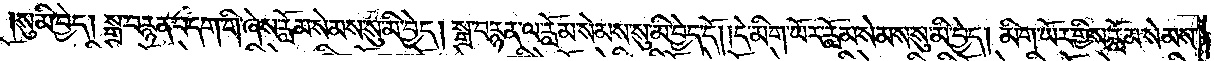སུ་མི་བྱེད། སྒྲ་བརྙན་བདག་གི་ཞེས་རློམ་སེམས་སུ་མི་བྱེད། སྒྲ་བརྙན་ལ་རློམ་སེམས་སུ་མི་བྱེད་དོ། །དེ་མིག་ཡོར་རློམ་སེམས་སུ་མི་བྱེད། མིག་ཡོར་གྱིས་རློམ་སེམས་
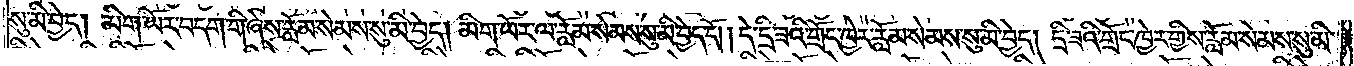སུ་མི་བྱེད། མིག་ཡོར་བདག་གི་ཞེས་རློམ་སེམས་སུ་མི་བྱེད། མིག་ཡོར་ལ་རློམ་སེམས་སུ་མི་བྱེད་དོ། །དེ་དྲི་ཟའི་གྲོང་ཁྱེར་རློམ་སེམས་སུ་མི་བྱེད། དྲི་ཟའི་གྲོང་ཁྱེར་གྱིས་རློམ་སེམས་སུ་མི་
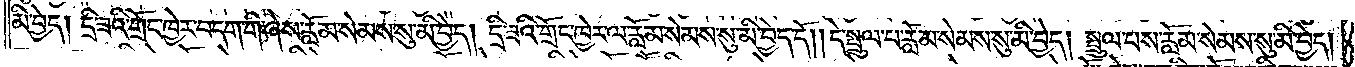མི་བྱེད། དྲི་ཟའི་གྲོང་ཁྱེར་བདག་གི་ཞེས་རློམ་སེམས་སུ་མི་བྱེད། དྲི་ཟའི་གྲོང་ཁྱེར་ལ་རློམ་སེམས་སུ་མི་བྱེད་དོ། །དེ་སྤྲུལ་པ་རློམ་སེམས་སུ་མི་བྱེད། སྤྲུལ་པས་རློམ་སེམས་སུ་མི་བྱེད།
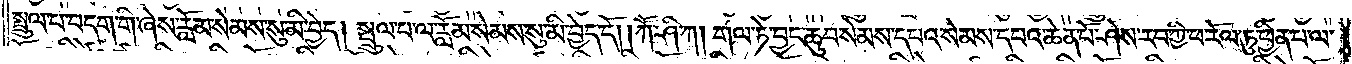སྤྲུལ་པ་བདག་གི་ཞེས་རློམ་སེམས་སུ་མི་བྱེད། སྤྲུལ་པ་ལ་རློམ་སེམས་སུ་མི་བྱེད་དོ། །ཀཽ་ཤི་ཀ། གལ་ཏེ་བྱང་ཆུབ་སེམས་དཔའ་སེམས་དཔའ་ཆེན་པོ་ཤེས་རབ་ཀྱི་ཕ་རོལ་ཏུ་ཕྱིན་པ་ལ་
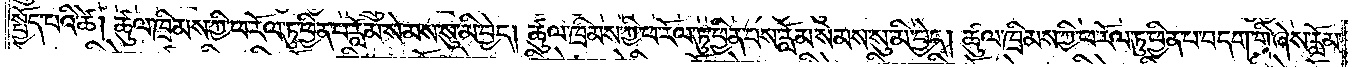སྤྱོད་པའི་ཚེ། ཚུལ་ཁྲིམས་ཀྱི་ཕ་རོལ་ཏུ་ཕྱིན་པ་རློམ་སེམས་སུ་མི་བྱེད། ཚུལ་ཁྲིམས་ཀྱི་ཕ་རོལ་ཏུ་ཕྱིན་པས་རློམ་སེམས་སུ་མི་བྱེད། ཚུལ་ཁྲིམས་ཀྱི་ཕ་རོལ་ཏུ་ཕྱིན་པ་བདག་གི་ཞེས་རློམ་
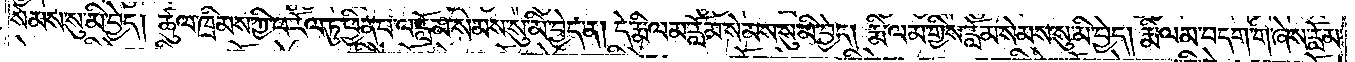སེམས་སུ་མི་བྱེད། ཚུལ་ཁྲིམས་ཀྱི་ཕ་རོལ་ཏུ་ཕྱིན་པ་ལ་རློམ་སེམས་སུ་མི་བྱེད་ན། དེ་རྨི་ལམ་རློམ་སེམས་སུ་མི་བྱེད། རྨི་ལམ་གྱིས་རློམ་སེམས་སུ་མི་བྱེད། རྨི་ལམ་བདག་གི་ཞེས་རློམ་
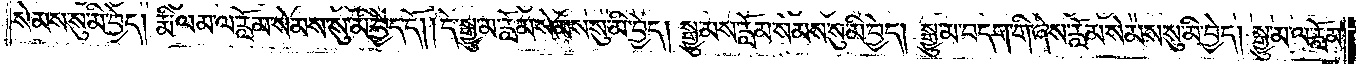སེམས་སུ་མི་བྱེད། རྨི་ལམ་ལ་རློམ་སེམས་སུ་མི་བྱེད་དོ། །དེ་སྒྱུ་མ་རློམ་སེམས་སུ་མི་བྱེད། སྒྱུ་མས་རློམ་སེམས་སུ་མི་བྱེད། སྒྱུ་མ་བདག་གི་ཞེས་རློམ་སེམས་སུ་མི་བྱེད། སྒྱུ་མ་ལ་རློམ་
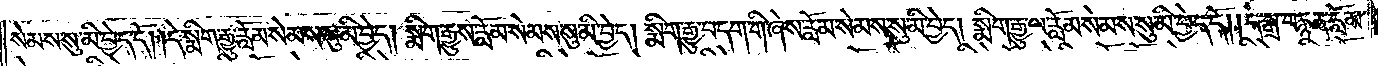སེམས་སུ་མི་བྱེད་དོ། །དེ་སྨིག་རྒྱུ་རློམ་སེམས་སུ་མི་བྱེད། སྨིག་རྒྱུས་རློམ་སེམས་སུ་མི་བྱེད། སྨིག་རྒྱུ་བདག་གི་ཞེས་རློམ་སེམས་སུ་མི་བྱེད། སྨིག་རྒྱུ་ལ་རློམ་སེམས་སུ་མི་བྱེད་དོ། །དེ་སྒྲ་བརྙན་རློམ་
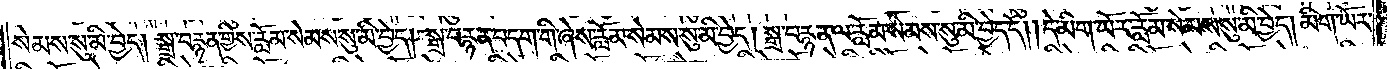སེམས་སུ་མི་བྱེད། སྒྲ་བརྙན་གྱིས་རློམ་སེམས་སུ་མི་བྱེད། སྒྲ་བརྙན་བདག་གི་ཞེས་རློམ་སེམས་སུ་མི་བྱེད། སྒྲ་བརྙན་ལ་རློམ་སེམས་སུ་མི་བྱེད་དོ། །དེ་མིག་ཡོར་རློམ་སེམས་སུ་མི་བྱེད། མིག་ཡོར་
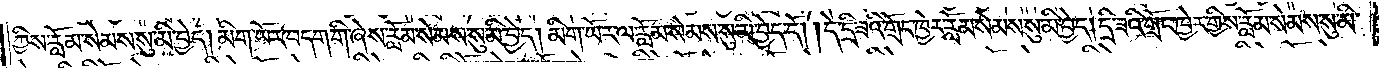གྱིས་རློམ་སེམས་སུ་མི་བྱེད། མིག་ཡོར་བདག་གི་ཞེས་རློམ་སེམས་སུ་མི་བྱེད། མིག་ཡོར་ལ་རློམ་སེམས་སུ་མི་བྱེད་དོ། །དེ་དྲི་ཟའི་གྲོང་ཁྱེར་རློམ་སེམས་སུ་མི་བྱེད། དྲི་ཟའི་གྲོང་ཁྱེར་གྱིས་རློམ་སེམས་སུ་མི་
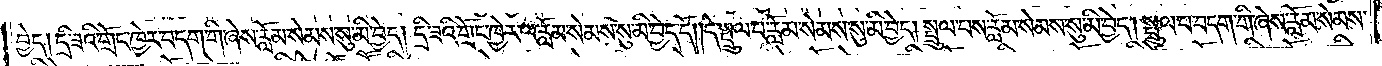བྱེད། དྲི་ཟའི་གྲོང་ཁྱེར་བདག་གི་ཞེས་རློམ་སེམས་སུ་མི་བྱེད། དྲི་ཟའི་གྲོང་ཁྱེར་ལ་རློམ་སེམས་སུ་མི་བྱེད་དོ། །དེ་སྤྲུལ་པ་རློམ་སེམས་སུ་མི་བྱེད། སྤྲུལ་པས་རློམ་སེམས་སུ་མི་བྱེད། སྤྲུལ་པ་བདག་གི་ཞེས་རློམ་སེམས་
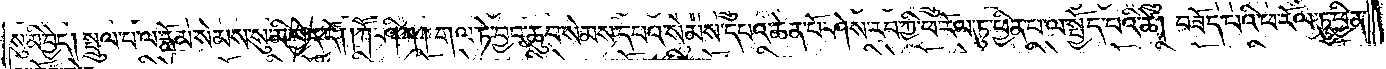སུ་མི་བྱེད། སྤྲུལ་པ་ལ་རློམ་སེམས་སུ་མི་བྱེད་དོ། །ཀཽ་ཤི་ཀ། གལ་ཏེ་བྱང་ཆུབ་སེམས་དཔའ་སེམས་དཔའ་ཆེན་པོ་ཤེས་རབ་ཀྱི་ཕ་རོལ་ཏུ་ཕྱིན་པ་ལ་སྤྱོད་པའི་ཚེ། བཟོད་པའི་ཕ་རོལ་ཏུ་ཕྱིན་
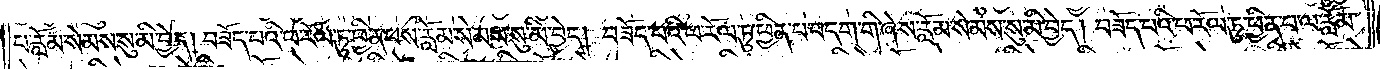པ་རློམ་སེམས་སུ་མི་བྱེད། བཟོད་པའི་ཕ་རོལ་ཏུ་ཕྱིན་པས་རློམ་སེམས་སུ་མི་བྱེད། བཟོད་པའི་ཕ་རོལ་ཏུ་ཕྱིན་པ་བདག་གི་ཞེས་རློམ་སེམས་སུ་མི་བྱེད། བཟོད་པའི་ཕ་རོལ་ཏུ་ཕྱིན་པ་ལ་རློམ་
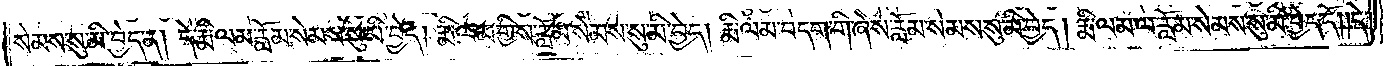སེམས་སུ་མི་བྱེད་ན། དེ་རྨི་ལམ་རློམ་སེམས་སུ་མི་བྱེད། རྨི་ལམ་གྱིས་རློམ་སེམས་སུ་མི་བྱེད། རྨི་ལམ་བདག་གི་ཞེས་རློམ་སེམས་སུ་མི་བྱེད། རྨི་ལམ་ལ་རློམ་སེམས་སུ་མི་བྱེད་དོ། །དེ་
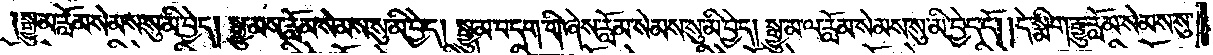སྒྱུ་མ་རློམ་སེམས་སུ་མི་བྱེད། སྒྱུ་མས་རློམ་སེམས་སུ་མི་བྱེད། སྒྱུ་མ་བདག་གི་ཞེས་རློམ་སེམས་སུ་མི་བྱེད། སྒྱུ་མ་ལ་རློམ་སེམས་སུ་མི་བྱེད་དོ། །དེ་སྨིག་རྒྱུ་རློམ་སེམས་སུ་
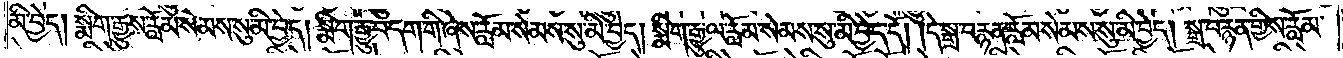མི་བྱེད། སྨིག་རྒྱུས་རློམ་སེམས་སུ་མི་བྱེད། སྨིག་རྒྱུ་བདག་གི་ཞེས་རློམ་སེམས་སུ་མི་བྱེད། སྨིག་རྒྱུ་ལ་རློམ་སེམས་སུ་མི་བྱེད་དོ། །དེ་སྒྲ་བརྙན་རློམ་སེམས་སུ་མི་བྱེད། སྒྲ་བརྙན་གྱིས་རློམ་
